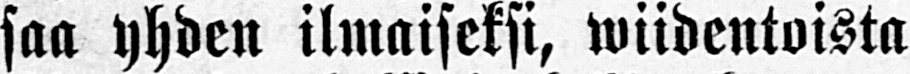saa yhden ilmaiseksi, wiidentoista
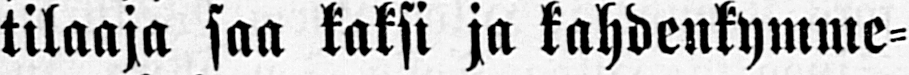tilaaja saa kaksi ja kahdenkymme-
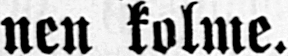nen kolme.
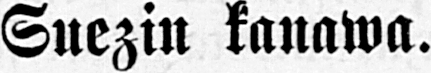Suezin kanawa.
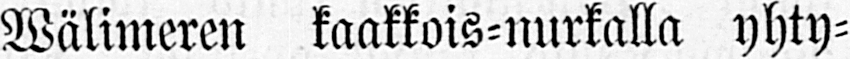Wälimeren kaakkois-nurkalla yhty-
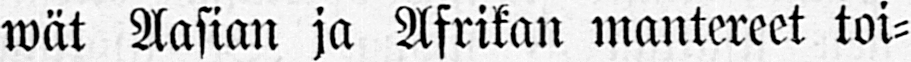wät Aasian ja Afrikan mantereet toi-
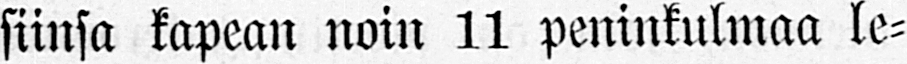siinsa kapean noin 11 peninkulmaa le-
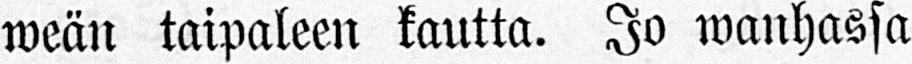weän taipaleen kautta. Jo wanhassa
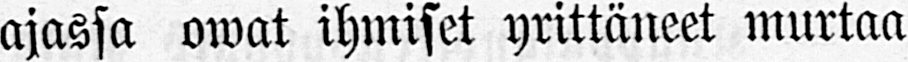ajassa owat ihmiset yrittäneet murtaa
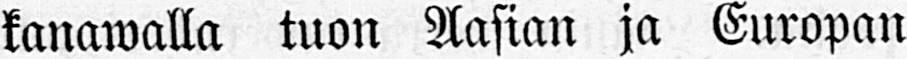kanawalla tuon Aasian ja Europan
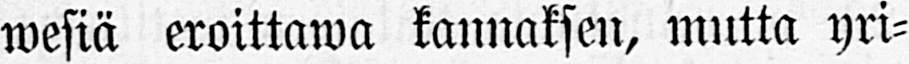wesiä eroittawa kannaksen, mutta yri-
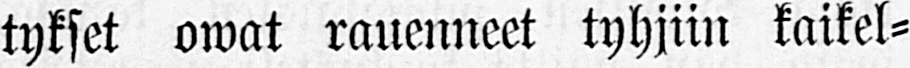tykset owat rauenneet tyhjiin kaikel-
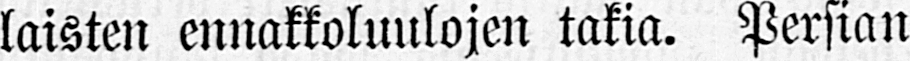laisten ennakkoluulojen takia. Persian
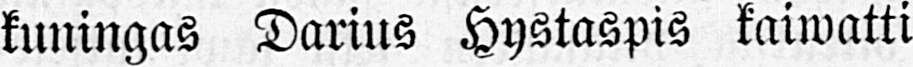kuningas Darius Hystaspis kaiwatti
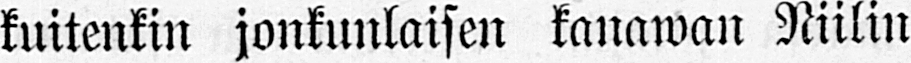kuitenkin jonkunlaisen kanawan Niilin
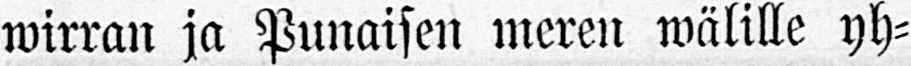wirran ja Punaisen meren wälille yh-
